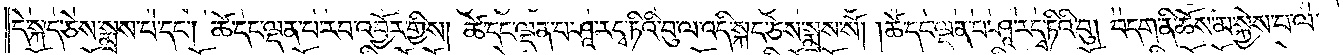དེ་སྐད་ཅེས་སྨྲས་པ་དང༌། ཚེ་དང་ལྡན་པ་རབ་འབྱོར་གྱིས། ཚེ་དང་ལྡན་པ་ཤཱ་ར་དྭ་ཏིའི་བུ་ལ་འདི་སྐད་ཅེས་སྨྲས་སོ། །ཚེ་དང་ལྡན་པ་ཤཱ་ར་དྭ་ཏིའི་བུ། བདག་ནི་ཆོས་མ་སྐྱེས་པ་ལ་
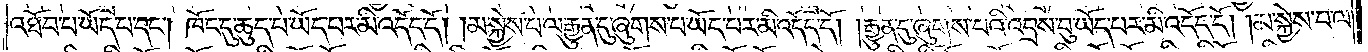འཐོབ་པ་ཡོད་པ་དང༌། ཁོང་དུ་ཆུད་པ་ཡོད་པར་མི་འདོད་དོ། །མ་སྐྱེས་པ་ལ་རྒྱུན་དུ་ཞུགས་པ་ཡོད་པར་མི་འདོད་དོ། །རྒྱུན་དུ་ཞུགས་པའི་འབྲས་བུ་ཡོད་པར་མི་འདོད་དོ། །མ་སྐྱེས་པ་ལ་
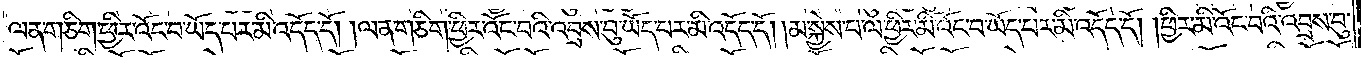ལན་ཅིག་ཕྱིར་འོང་བ་ཡོད་པར་མི་འདོད་དོ། །ལན་ཅིག་ཕྱིར་འོང་བའི་འབྲས་བུ་ཡོད་པར་མི་འདོད་དོ། །མ་སྐྱེས་པ་ལ་ཕྱིར་མི་འོང་བ་ཡོད་པར་མི་འདོད་དོ། །ཕྱིར་མི་འོང་བའི་འབྲས་བུ་
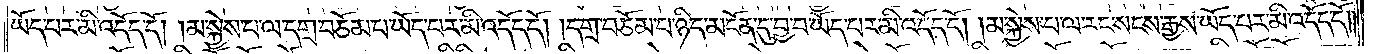ཡོད་པར་མི་འདོད་དོ། མ་སྐྱེས་པ་ལ་དགྲ་བཅོམ་པ་ཡོད་པར་མི་འདོད་དོ། །དགྲ་བཅོམ་པ་ཉིད་མངོན་དུ་བྱ་བ་ཡོད་པར་མི་འདོད་དོ། །མ་སྐྱེས་པ་ལ་རང་སངས་རྒྱས་ཡོད་པར་མི་འདོད་དོ། །
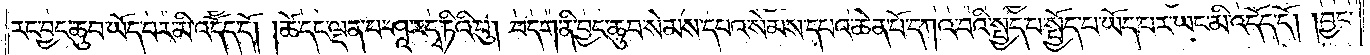རང་བྱང་ཆུབ་ཡོད་པར་མི་འདོད་དོ། །ཚེ་དང་ལྡན་པ་ཤཱ་ར་དྭ་ཏིའི་བུ། བདག་ནི་བྱང་ཆུབ་སེམས་དཔའ་སེམས་དཔའ་ཆེན་པོ་དཀའ་བའི་སྤྱད་པ་སྤྱོད་པ་ཡོད་པར་ཡང་མི་འདོད་དོ། །བྱང་
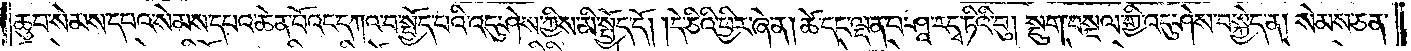ཆུབ་སེམས་དཔའ་སེམས་དཔའ་ཆེན་པོའང་དཀའ་བ་སྤྱོད་པའི་འདུ་ཤེས་ཀྱིས་མི་སྤྱོད་དོ། །དེ་ཅིའི་ཕྱིར་ཞེ་ན། ཚེ་དང་ལྡན་པ་ཤཱ་ར་དྭ་ཏིའི་བུ། སྡུག་བསྔལ་གྱི་འདུ་ཤེས་བསྐྱེད་ན། སེམས་ཅན་
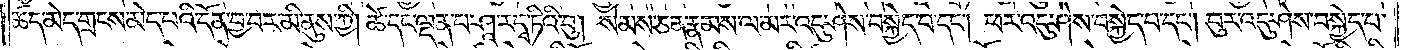ཚད་མེད་གྲངས་མེད་པའི་དོན་བྱ་བར་མི་ནུས་ཀྱི། ཚེ་དང་ལྡན་པ་ཤཱ་ར་དྭ་ཏིའི་བུ། སེམས་ཅན་རྣམས་ལ་མར་འདུ་ཤེས་བསྐྱེད་པ་དང༌། ཕར་འདུ་ཤེས་བསྐྱེད་པ་དང༌། བུར་འདུ་ཤེས་བསྐྱེད་པ་
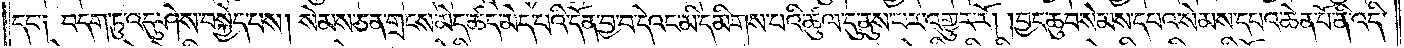དང༌༏ བདག་ཏུ་འདུ་ཤེས་བསྐྱེད་པས། སེམས་ཅན་གྲངས་མེད་ཚད་མེད་པའི་དོན་བྱ་བ་དེའང་མི་དམིགས་པའི་ཚུལ་དུ་ནུས་པར་འགྱུར་རོ། །བྱང་ཆུབ་སེམས་དཔའ་སེམས་དཔའ་ཆེན་པོ་ནི་འདི་
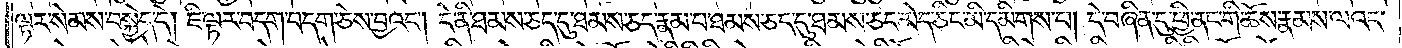ལྟར་སེམས་བསྐྱེད་དེ། ཇི་ལྟར་བདག་བདག་ཅེས་བྱའང༌། དེ་ནི་ཐམས་ཅད་དུ་ཐམས་ཅད་རྣམ་པ་ཐམས་ཅད་དུ་ཐམས་ཅད་མེད་ཅིང་མི་དམིགས་པ། དེ་བཞིན་དུ་ཕྱི་ནང་གི་ཆོས་རྣམས་ལའང་
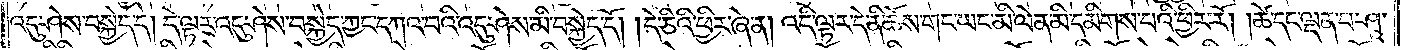འདུ་ཤེས་བསྐྱེད་དེ། དེ་ལྟར་འདུ་ཤེས་བསྐྱེད་ཀྱང་དཀའ་བའི་འདུ་ཤེས་མི་བསྐྱེད་དོ། །དེ་ཅིའི་ཕྱིར་ཞེ་ན། འདི་ལྟར་དེ་ནི་ཆོས་གང་ཡང་མི་ལེན་མི་དམིགས་པའི་ཕྱིར་རོ། །ཚེ་དང་ལྡན་པ་ཤཱ་
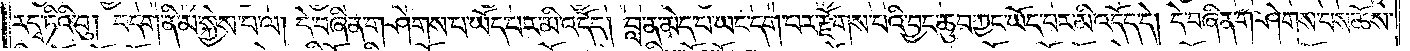ར་དྭ་ཏིའི་བུ། བདག་ནི་མ་སྐྱེས་པ་ལ། དེ་བཞིན་གཤེགས་པ་ཡོད་པར་མི་འདོད། བླ་ན་མེད་པ་ཡང་དག་པར་རྫོགས་པའི་བྱང་ཆུབ་ཀྱང་ཡོད་པར་མི་འདོད་དོ། དེ་བཞིན་གཤེགས་པས་ཆོས་
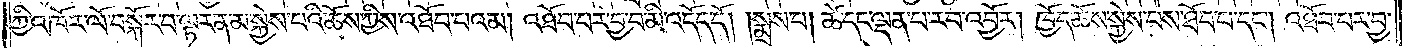ཀྱི་འཁོར་ལོ་བསྐོར་བ་ལྟར་ན་མ་སྐྱེས་པའི་ཆོས་ཀྱིས་འཐོབ་པའམ། འཐོབ་པར་བྱ་བ་མི་འདོད་དོ། །སྨྲས་པ། ཚེ་དང་ལྡན་པ་རབ་འབྱོར་ཁྱོད་ཆོས་སྐྱེས་པས་ཐོབ་པ་དང༌། འཐོབ་པར་བྱ་
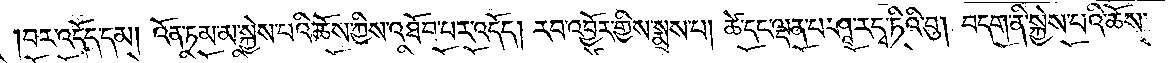བར་འདོད་དམ། འོན་ཏམ་མ་སྐྱེས་པའི་ཆོས་ཀྱིས་འཐོབ་པར་འདོད། རབ་འབྱོར་གྱིས་སྨྲས་པ། ཚེ་དང་ལྡན་པ་ཤཱ་ར་དྭ་ཏིའི་བུ། བདག་ནི་སྐྱེས་པའི་ཆོས་
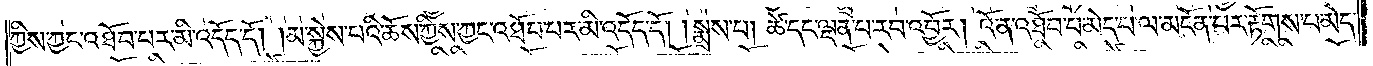ཀྱིས་ཀྱང་འཐོབ་པར་མི་འདོད་དོ། །མ་སྐྱེས་པའི་ཆོས་ཀྱིས་ཀྱང་འཐོབ་པར་མི་འདོད་དོ། །སྨྲས་པ། ཚེ་དང་ལྡན་པ་རབ་འབྱོར། འོ་ན་འཐོབ་པ་མེད་པ་ལ་མངོན་པར་རྟོགས་པ་མེད་
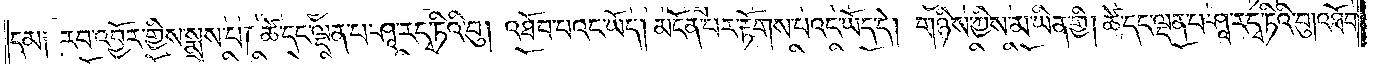དམ༏ རབ་འབྱོར་གྱིས་སྨྲས་པ། ཚེ་དང་ལྡན་པ་ཤཱ་ར་དྭ་ཏིའི་བུ། འཐོབ་པའང་ཡོད། མངོན་པར་རྟོགས་པའང་ཡོད་དོ། གཉིས་ཀྱིས་མ་ཡིན་གྱི། ཚེ་དང་ལྡན་པ་ཤཱ་ར་དྭ་ཏིའི་བུ། འཐོབ་
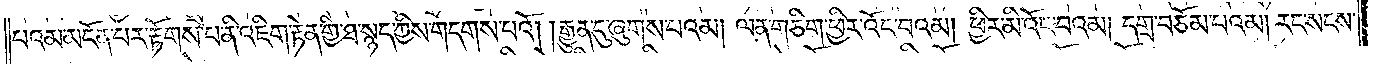པ་འམ་མངོན་པར་རྟོགས་པ་ནི་འཇིག་རྟེན་གྱི་ཐ་སྙད་ཀྱིས་གདགས་པའོ། །རྒྱུན་དུ་ཞུགས་པའམ། ལན་ཅིག་ཕྱིར་འོང་བའམ། ཕྱིར་མི་འོང་བའམ། དགྲ་བཅོམ་པའམ། རང་སངས་
